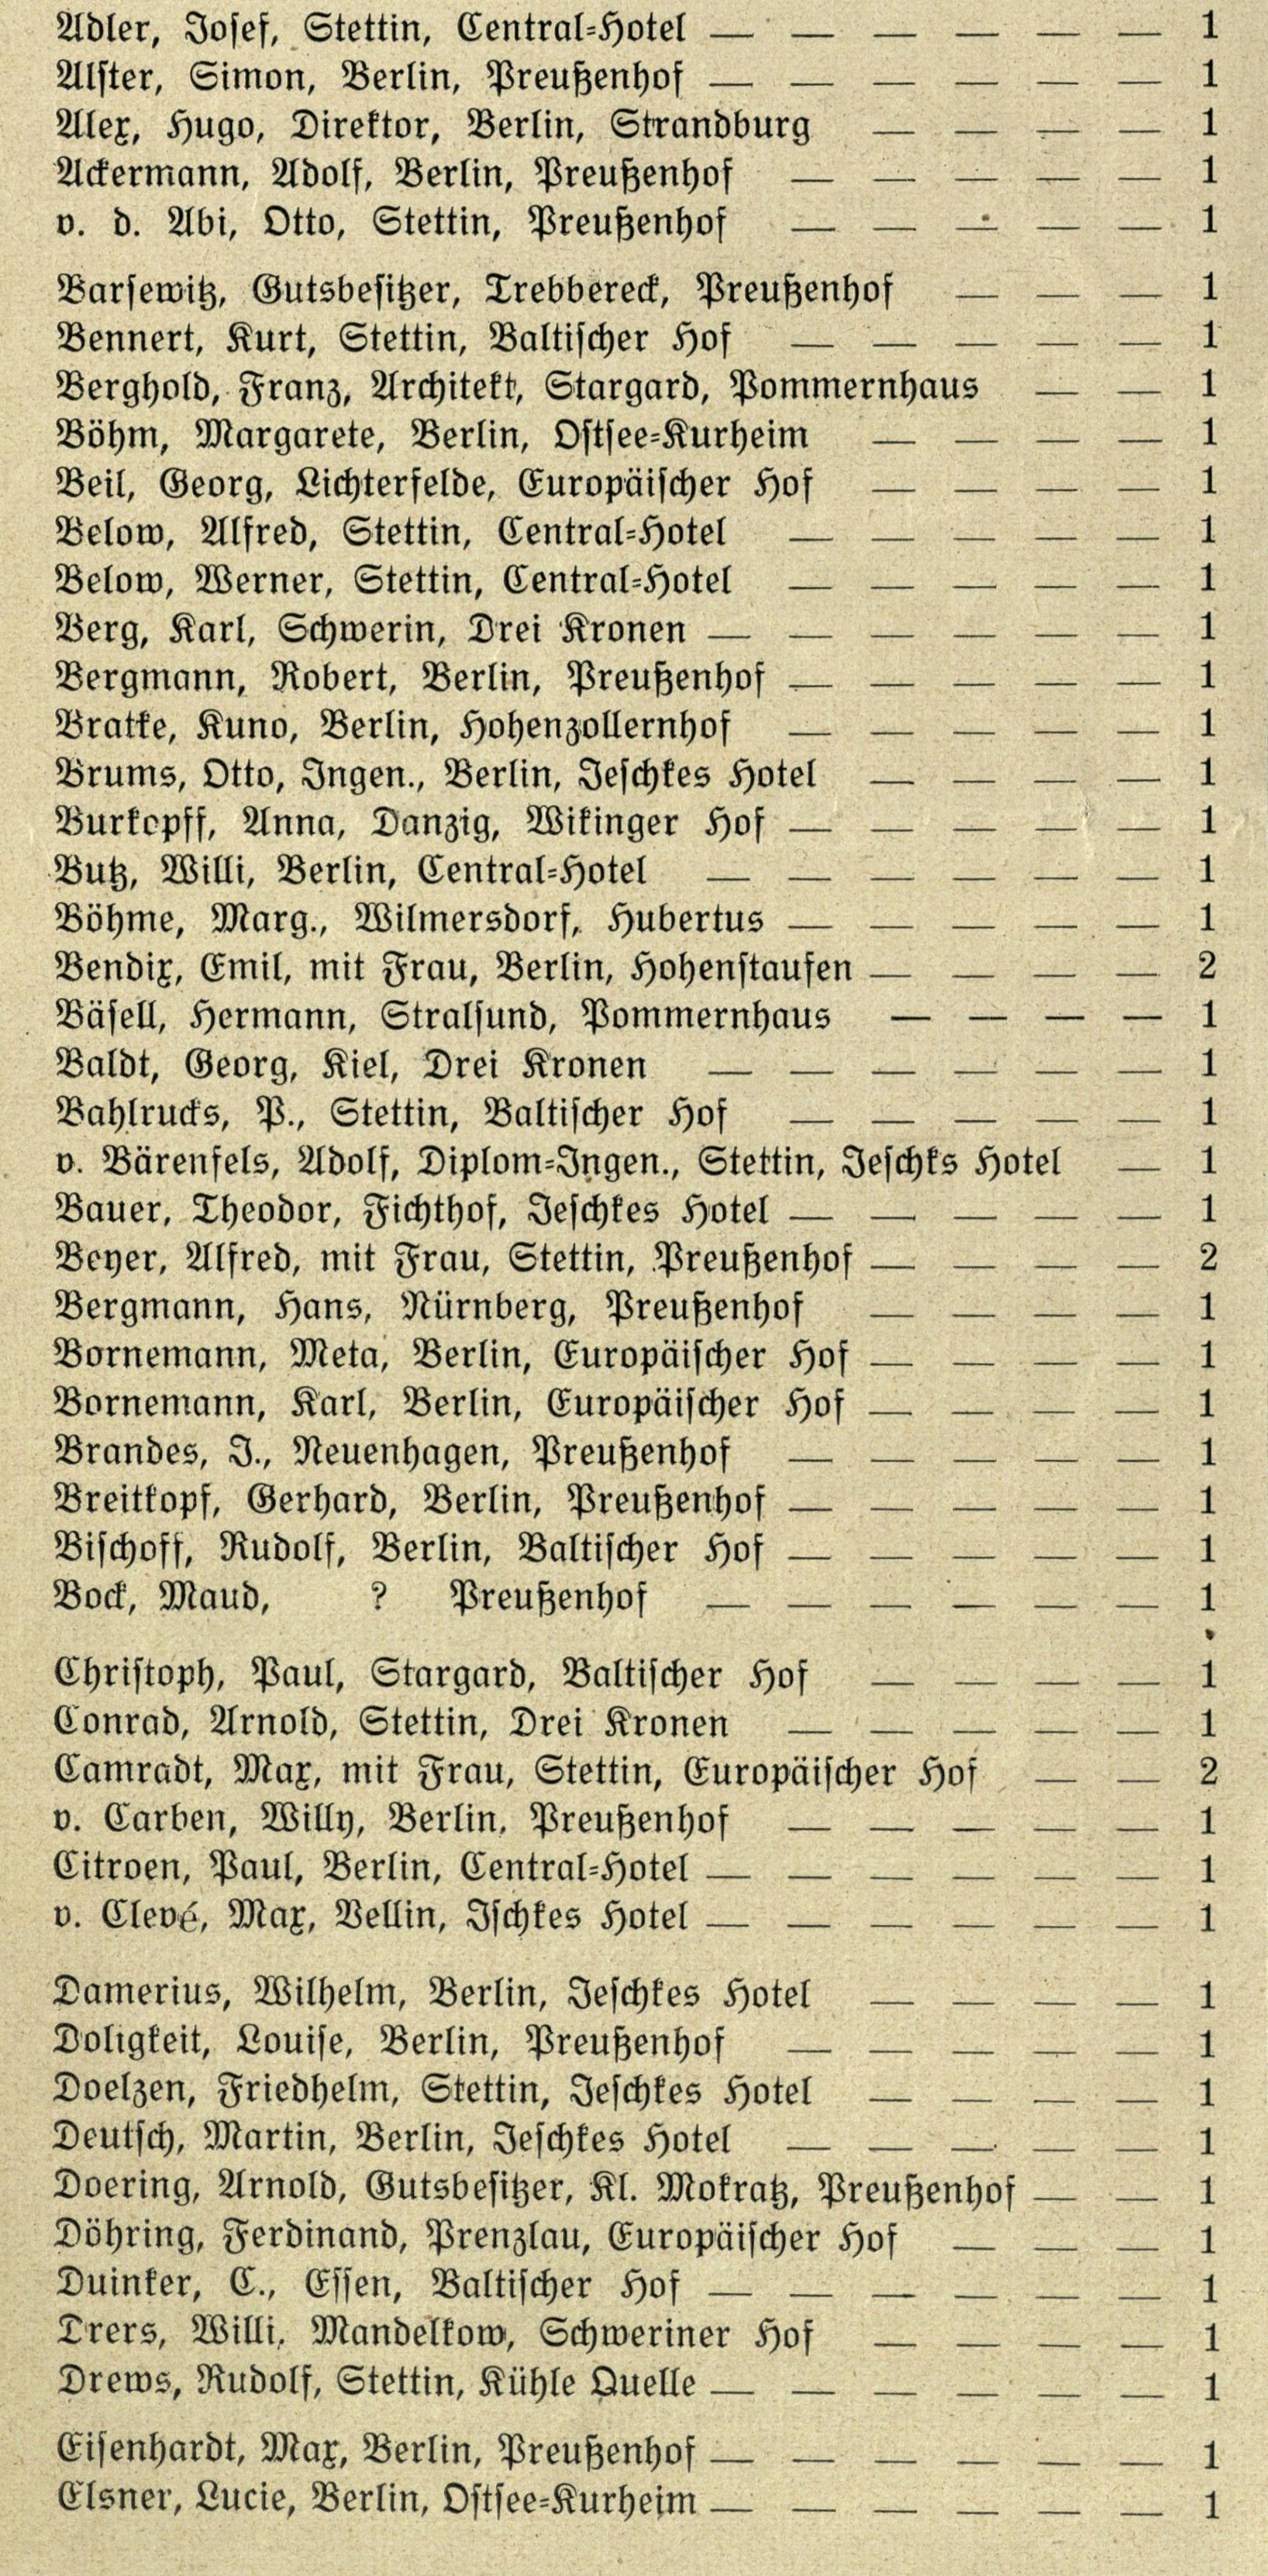Adler, Josef, Stettin, Central=Hotel | 1
Alster, Simon, Berlin, Preußenhof | 1
Alex, Hugo, Direktor, Berlin, Strandburg | 1
Ackermann, Adolf, Berlin, Preußenhof | 1
v. d. Abi, Otto, Stettin, Preußenhof | 1
Barsewitz, Gutsbesitzer, Trebbereck, Preußenhof | 1
Bennert, Kurt, Stettin, Baltischer Hof | 1
Berghold, Franz, Architekt, Stargard, Pommernhaus | 1
Böhm, Margarete, Berlin, Ostsee=Kurheim | 1
Beil, Georg, Lichterfelde, Europäischer Hof | 1
Below, Alfred, Stettin, Central=Hotel | 1
Below, Werner, Stettin, Central=Hotel | 1
Berg, Karl, Schwerin, Drei Kronen | 1
Bergmann, Robert, Berlin, Preußenhof | 1
Bratke, Kuno, Berlin, Hohenzollernhof | 1
Brums, Otto, Ingen., Berlin, Jeschkes Hotel | 1
Burkopff, Anna, Danzig, Wikinger Hof | 1
Butz, Willi, Berlin, Central=Hotel | 1
Böhme, Marg., Wilmersdorf, Hubertus | 1
Bendix, Emil, mit Frau, Berlin, Hohenstaufen | 2
Bäsell, Hermann, Stralsund, Pommernhaus | 1
Baldt, Georg, Kiel, Drei Kronen | 1
Bahlrucks, P., Stettin, Baltischer Hof | 1
v. Bärenfels, Adolf, Diplom=Ingen., Stettin, Jeschkes Hotel | 1
Bauer, Theodor, Fichthof, Jeschkes Hotel | 1
Beyer, Alfred, mit Frau, Stettin, Preußenhof | 2
Bergmann, Hans, Nürnberg, Preußenhof | 1
Bornemann, Meta, Berlin, Europäischer Hof | 1
Bornemann, Karl, Berlin, Europäischer Hof | 1
Brandes, I., Neuenhagen, Preußenhof | 1
Breitkopf, Gerhard, Berlin, Preußenhof | 1
Bischoff, Rudolf, Berlin, Baltischer Hof | 1
Bock, Maud, ? Preußenhof | 1
Christoph, Paul, Stargard, Baltischer Hof | 1
Conrad, Arnold, Stettin, Drei Kronen | 1
Camradt, Max, mit Frau, Stettin, Europäischer Hof | 2
v. Carben, Willy, Berlin, Preußenhof | 1
Citroen, Paul, Berlin, Central=Hotel | 1
v. Clevé, Max, Vellin, Jschkes Hotel | 1
Damerius, Wilhelm, Berlin, Jeschkes Hotel | 1
Doligkeit, Louise, Berlin, Preußenhof | 1
Doelzen, Friedhelm, Stettin, Jeschkes Hotel | 1
Deutsch, Martin, Berlin, Jeschkes Hotel | 1
Doering, Arnold, Gutsbesitzer, Kl. Mokratz, Preußenhof | 1
Döhring, Ferdinand, Prenzlau, Europäischer Hof | 1
Duinker, C., Essen, Baltischer Hof | 1
Drers, Willi, Madelkow, Schweriner Hof | 1
Drews, Rudolf, Stettin, Kühle Quelle | 1
Eisenhardt, Max, Berlin, Preußenhof | 1
Elsner, Lucie, Berlin, Ostsee=Kurheim | 1
